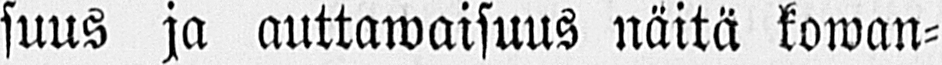suus ja auttawaisuus näitä kowan-
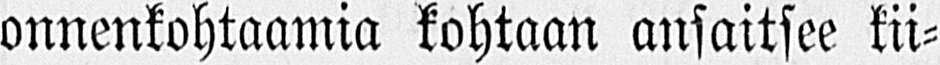onnenkohtaamia kohtaan ansaitsee kii-
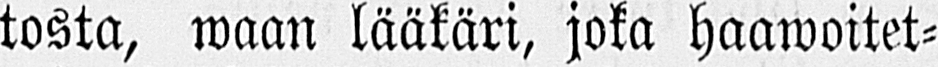tosta, waan lääkäri, joka haawoitet-
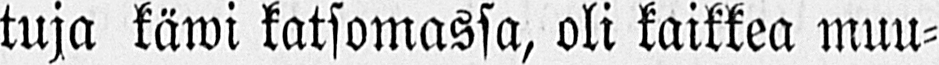tuja käwi katsomassa, oli kaikkea muu-
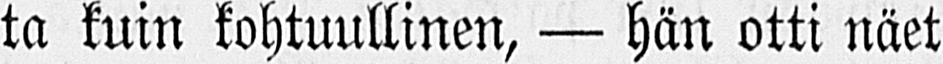ta kuin kohtuullinen, — hän otti näet
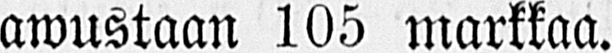awustaan 105 markkaa.
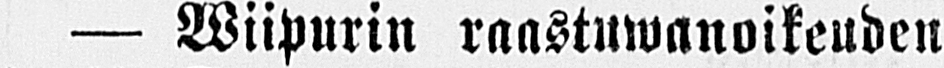— Wiipurin raastuwanoikeuden
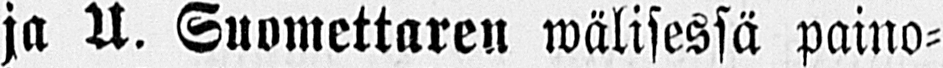ja A. Suomettaren wälisessä paino-
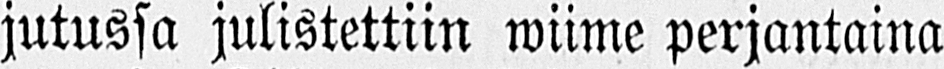jutussa julistettiin wiime perjantaina
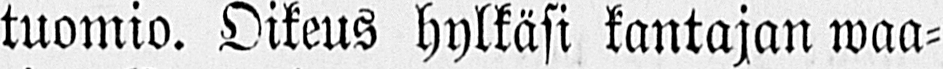tuomio. Oikeus hylkäsi kantajan waa-
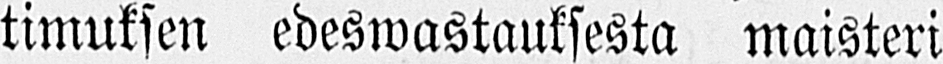timuksen edeswastauksesta maisteri
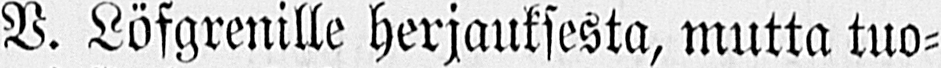V. Löfgrenille herjauksesta, mutta tuo-
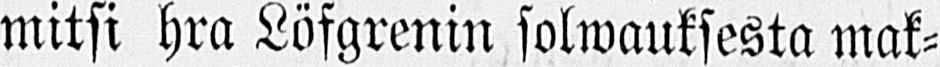mitsi hra Löfgrenin solwauksesta mak-
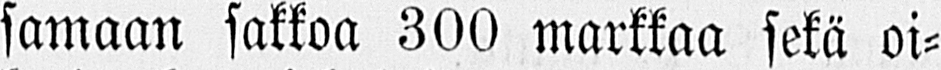samaan sakkoa 300 markkaa sekä oi-
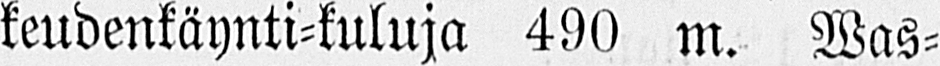keudenkäynti-kuluja 490 m. Was-
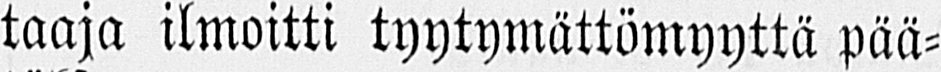taaja ilmoitti tyytymättömyyttä pää-
